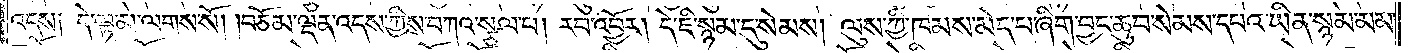འདས༑ དེ་ལྟ་མ་ལགས་སོ། །བཅོམ་ལྡན་འདས་ཀྱིས་བཀའ་སྩལ་པ། རབ་འབྱོར། དེ་ཇི་སྙམ་དུ་སེམས། ལུས་ཀྱི་ཁམས་མེད་པ་ཞིག་བྱང་ཆུབ་སེམས་དཔའ་ཡིན་སྙམ་མམ་
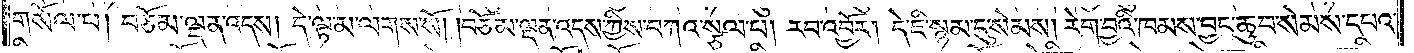གསོལ་པ། བཅོམ་ལྡན་འདས། དེ་ལྟ་མ་ལགས་སོ། །བཅོམ་ལྡན་འདས་ཀྱིས་བཀའ་སྩལ་པ། རབ་འབྱོར། དེ་ཇི་སྙམ་དུ་སེམས། རེག་བྱའི་ཁམས་བྱང་ཆུབ་སེམས་དཔའ་
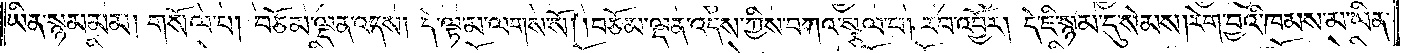ཡིན་སྙམ་མམ། གསོལ་པ། བཅོམ་ལྡན་འདས། དེ་ལྟ་མ་ལགས་སོ། །བཅོམ་ལྡན་འདས་ཀྱིས་བཀའ་སྩལ་པ། རབ་འབྱོར། དེ་ཇི་སྙམ་དུ་སེམས། རེག་བྱའི་ཁམས་མ་ཡིན་
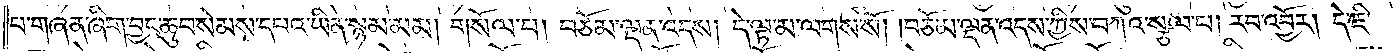པ་གཞན་ཞིག་བྱང་ཆུབ་སེམས་དཔའ་ཡིན་སྙམ་མམ། གསོལ་པ། བཅོམ་ལྡན་འདས། དེ་ལྟ་མ་ལགས་སོ། །བཅོམ་ལྡན་འདས་ཀྱིས་བཀའ་སྩལ་པ། རབ་འབྱོར། དེ་ཇི་
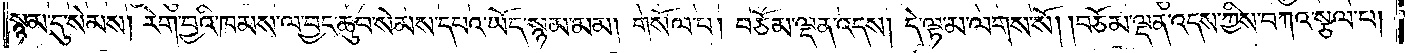སྙམ་དུ་སེམས། རེག་བྱའི་ཁམས་ལ་བྱང་ཆུབ་སེམས་དཔའ་ཡོད་སྙམ་མམ། གསོལ་པ། བཅོམ་ལྡན་འདས། དེ་ལྟ་མ་ལགས་སོ། །བཅོམ་ལྡན་འདས་ཀྱིས་བཀའ་སྩལ་པ།
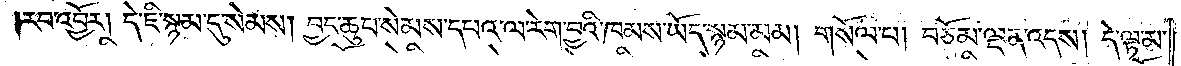རབ་འབྱོར། དེ་ཇི་སྙམ་དུ་སེམས། བྱང་ཆུབ་སེམས་དཔའ་ལ་རེག་བྱའི་ཁམས་ཡོད་སྙམ་མམ། གསོལ་པ། བཅོམ་ལྡན་འདས། དེ་ལྟ་མ་
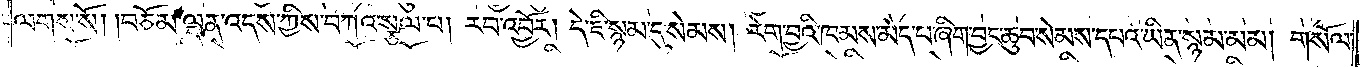ལགས་སོ། །བཅོམ་ལྡན་འདས་ཀྱིས་བཀའ་སྩལ་པ། རབ་འབྱོར། དེ་ཇི་སྙམ་དུ་སེམས། རེག་བྱའི་ཁམས་མེད་པ་ཞིག་བྱང་ཆུབ་སེམས་དཔའ་ཡིན་སྙམ་མམ། གསོལ་
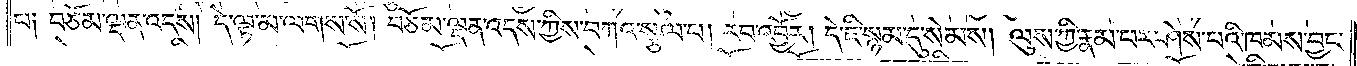པ༑ བཅོམ་ལྡན་འདས། དེ་ལྟ་མ་ལགས་སོ། བཅོམ་ལྡན་འདས་ཀྱིས་བཀའ་སྩལ་པ། རབ་འབྱོར། དེ་ཇི་སྙམ་དུ་སེམས། ལུས་ཀྱི་རྣམ་པར་ཤེས་པའི་ཁམས་བྱང་
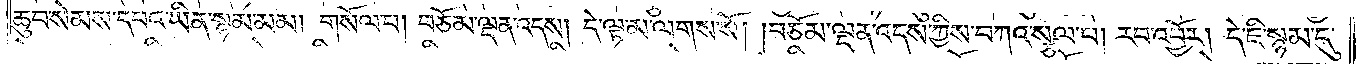ཆུབ་སེམས་དཔའ་ཡིན་སྙམ་མམ། གསོལ་པ། བཅོམ་ལྡན་འདས། དེ་ལྟ་མ་ལགས་སོ། །བཅོམ་ལྡན་འདས་ཀྱིས་བཀའ་སྩལ་པ། རབ་འབྱོར། དེ་ཇི་སྙམ་དུ་
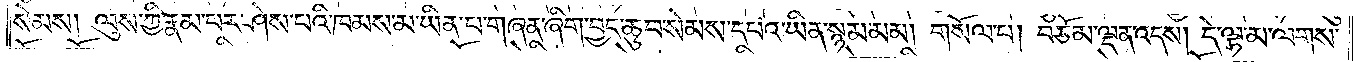སེམས། ལུས་ཀྱི་རྣམ་པར་ཤེས་པའི་ཁམས་མ་ཡིན་པ་གཞན་ཞིག་བྱང་ཆུབ་སེམས་དཔའ་ཡིན་སྙམ་མམ། གསོལ་པ། བཅོམ་ལྡན་འདས། དེ་ལྟ་མ་ལགས་
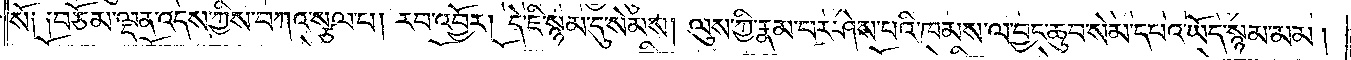སོ༑ ༑བཅོམ་ལྡན་འདས་ཀྱིས་བཀའ་སྩལ་པ། རབ་འབྱོར། དེ་ཇི་སྙམ་དུ་སེམས། ལུས་ཀྱི་རྣམ་པར་ཤེས་པའི་ཁམས་ལ་བྱང་ཆུབ་སེམས་དཔའ་ཡོད་སྙམ་མམ།
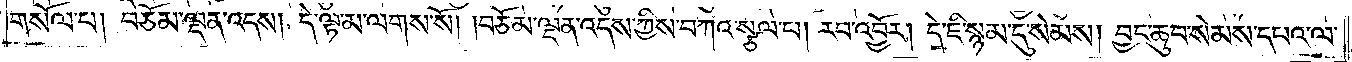གསོལ་པ། བཅོམ་ལྡན་འདས། དེ་ལྟ་མ་ལགས་སོ། །བཅོམ་ལྡན་འདས་ཀྱིས་བཀའ་སྩལ་པ། རབ་འབྱོར། དེ་ཇི་སྙམ་དུ་སེམས། བྱང་ཆུབ་སེམས་དཔའ་ལ་
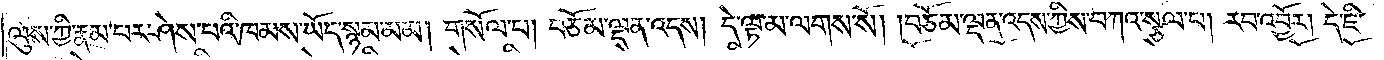ལུས་ཀྱི་རྣམ་པར་ཤེས་པའི་ཁམས་ཡོད་སྙམ་མམ། གསོལ་པ། བཅོམ་ལྡན་འདས། དེ་ལྟ་མ་ལགས་སོ། །བཅོམ་ལྡན་འདས་ཀྱིས་བཀའ་སྩལ་པ། རབ་འབྱོར། དེ་ཇི་
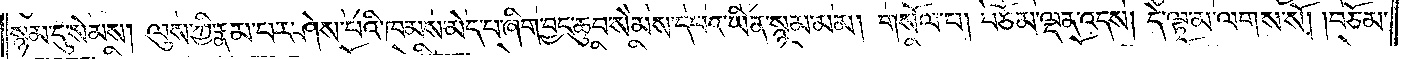སྙམ་དུ་སེམས། ལུས་ཀྱི་རྣམ་པར་ཤེས་པའི་ཁམས་མེད་པ་ཞིག་བྱང་ཆུབ་སེམས་དཔའ་ཡིན་སྙམ་མམ། གསོལ་པ། བཅོམ་ལྡན་འདས། དེ་ལྟ་མ་ལགས་སོ། །བཅོམ་
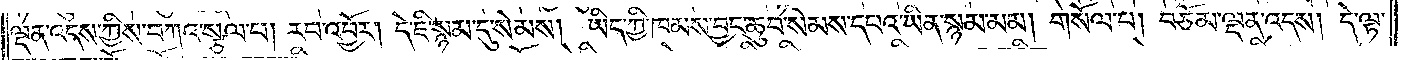ལྡན་འདས་ཀྱིས་བཀའ་སྩལ་པ། རབ་འབྱོར། དེ་ཇི་སྙམ་དུ་སེམས། ཡིད་ཀྱི་ཁམས་བྱང་ཆུབ་སེམས་དཔའ་ཡིན་སྙམ་མམ། གསོལ་པ། བཅོམ་ལྡན་འདས། དེ་ལྟ་
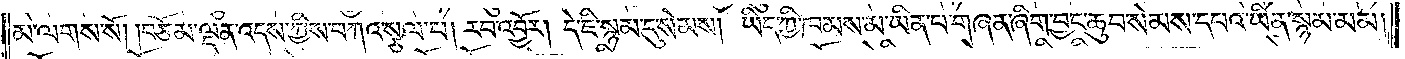མ་ལགས་སོ། །བཅོམ་ལྡན་འདས་ཀྱིས་བཀའ་སྩལ་པ། རབ་འབྱོར། དེ་ཇི་སྙམ་དུ་སེམས། ཡིད་ཀྱི་ཁམས་མ་ཡིན་པ་གཞན་ཞིག་བྱང་ཆུབ་སེམས་དཔའ་ཡིན་སྙམ་མམ།
